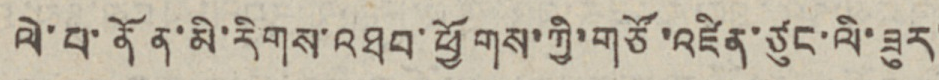ལེ་པ་ནོན་མི་རིགས་འཐབ་ཕྱོགས་ཀྱི་གཙོ་འཛིན་ཙུང་ལི་ཟུར་
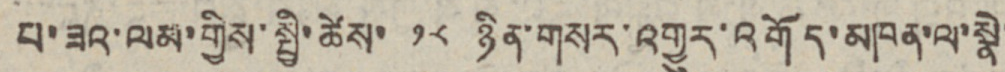པ་ཟའ་ལམ་གྱིས་སྤྱི་ཚེས་ ༡༨ ཉིན་གསར་འགྱུར་འགོད་མཁན་ལ་སྣེ་
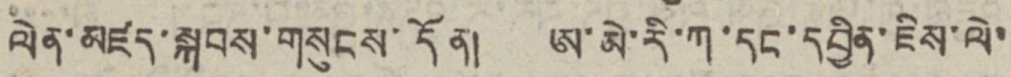ལེན་མཛད་སྐབས་གསུངས་དོན། ཨ་མེ་རི་ཀ་དང་དབྱིན་ཇིས་ལེ་
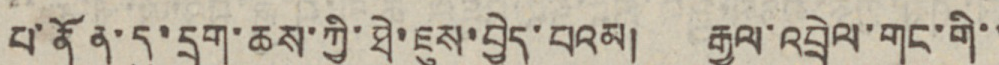པ་ནོན་དུ་དྲག་ཆས་ཀྱི་ཐེ་ཇུས་བྱེད་པའམ། རྒྱལ་འབྲེལ་གང་གི་་
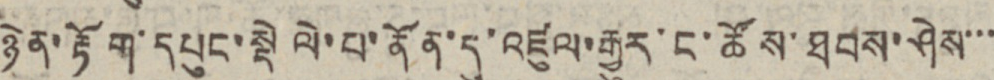ཉེན་རྟོག་དཔུང་སྡེ་ལེ་པ་ནོན་དུ་འཛུལ་རྒྱུར་ང་ཚོས་ཐབས་ཤེས་་་
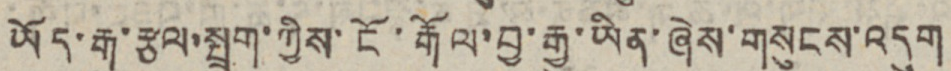ཡོད་རྒུ་རྩལ་སྤྲུག་ཀྱིས་ངོ་རྒོལ་བྱ་རྒྱུ་ཡིན་ཞེས་གསུངས་འདུག
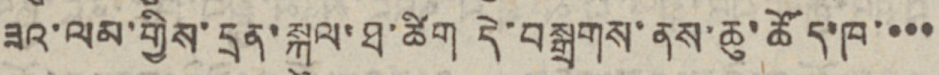ཟའ་ལམ་གྱིས་དྲན་སྐུལ་ཐ་ཚིག དེ་བསྒྲགས་ནས་ཆུ་ཚོད་ཁ་་་་
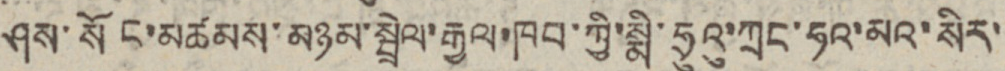ཤས་སོང་མཚམས་མཉམ་སྦྲེལ་རྒྱལ་ཁབ་ཀྱི་སྨི་ཧྲུའུ་ཀྲང་ཧའ་མའ་སིར་
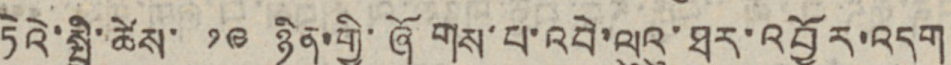ཏེའེ་སྤྱི་ཚེས་ ༡༩ ཉིན་གྱི་ཞོགས་པ་འབེ་ལུའུ་ཐར་འབྱོར་འདུག
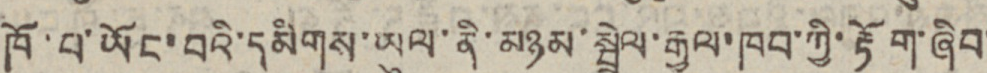ཁོ་བ་ཡོང་བའི་དམིགས་ཡུལ་ནི་མཉམ་སྦྲེལ་རྒྱལ་ཁབ་ཀྱི་རྟོག་ཞིབ་
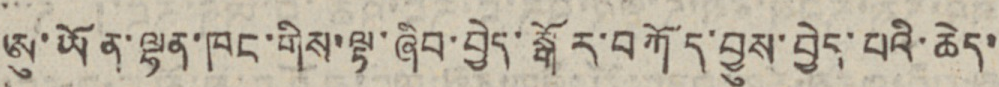ཨུ་ཡོན་ལྷན་ཁང་གིས་ལྟ་ཞིབ་བྱེད་སྒོར་བཀོད་བྱུས་བྱེད་པའི་ཆེད་
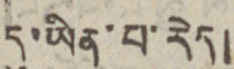དུ་ཡིན་པ་རེད།
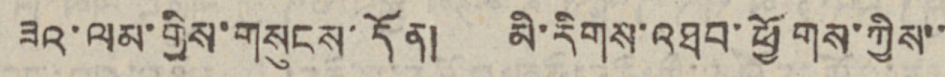ཟའ་ལམ་གྱིས་གསུངས་དོན། མི་རིགས་འཐབ་ཕྱོགས་ཀྱིས་་
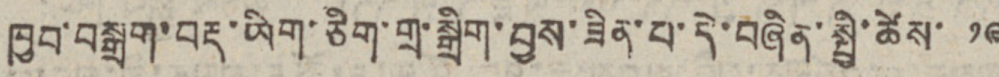ཁྱབ་བསྒྲག་བརྡ་ཡིག་ཅིག་གྲ་སྒྲིག་བྱས་ཟིན་པ་དེ་བཞིན་སྤྱི་ཚེས་ ༡༩
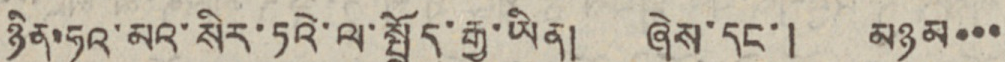ཉིན་ཧའ་མའ་སིར་ཏའེ་ལ་སྤྲོད་རྒྱུ་ཡིན། ཞེས་དང་། མཉམ་་་
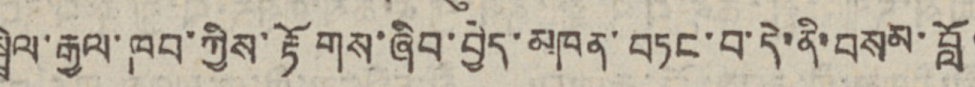སྦྲེལ་རྒྱལ་ཁབ་ཀྱིས་རྟོགས་ཞིབ་བྱེད་མཁན་བཏང་བ་དེ་ནི་བསམ་བློ་
